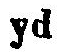yd
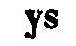ys
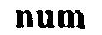num
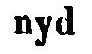nyd
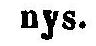nys.
